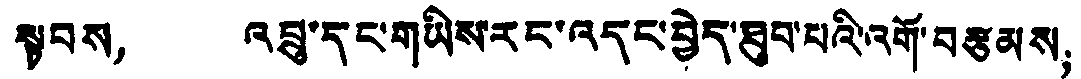སྟབས， འབྲུ་དང་གཡིས་རང་འདང་བྱེད་ཐུབ་པའི་འགོ་བརྩམས；
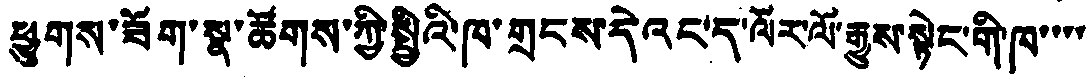ཕྱུགས་ཟོག་སྣ་ཚོགས་ཀྱི་སྤྱིའི་ཁ་གྲངས་དེའང་ད་ལོར་ལོ་རྒྱུས་སྟེང་གི་ཁ་་་་
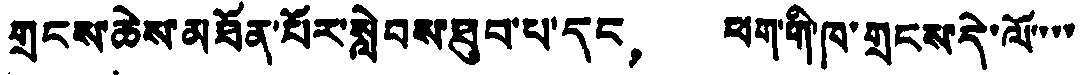གྲངས་ཆེས་མཐོན་པོར་སླེབས་ཐུབ་པ་དང， ཕག་གི་ཁ་གྲངས་དེ་ལོ་་་་
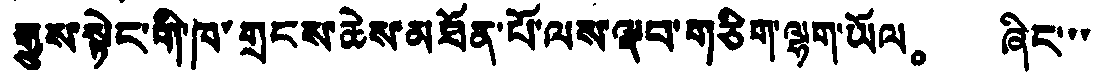རྒྱུས་སྟེང་གི་ཁ་གྲངས་ཆེས་མཐོན་པོ་ལས་ལྡབ་གཅིག་ལྷག་ཡོལ。 ཞིང་་་
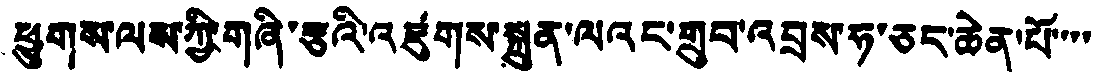ཕྱུགས་ལས་ཀྱི་གཞི་རྩའི་འཛུགས་སྐྲུན་ལའང་གྲུབ་འབྲས་ཧ་ཅང་ཆེན་པོ་་་་
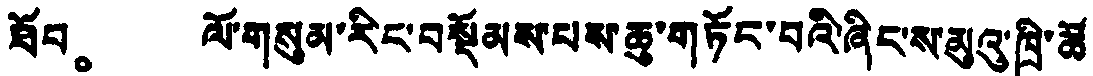ཐོབ。 ལོ་གསུམ་རིང་བསྡོམས་པས་ཆུ་གཏོང་བའི་ཞིང་ས་མུའུ་ཁྲི་ཚོ་
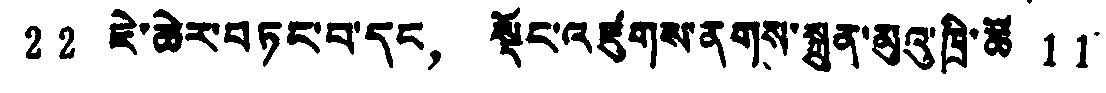22 ཇེ་ཆེར་བཏང་བ་དང， སྡོང་འཛུགས་ནགས་སྐྲུན་མུའུ་ཁྲི་ཚོ 11
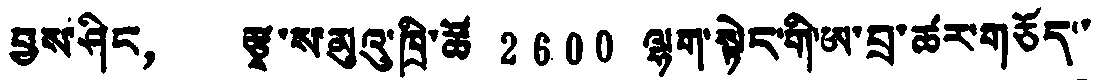བྱས་ཤིང， རྩྭ་ས་མུའུ་ཁྲི་ཚོ 2600 ལྷག་སྟེང་གི་ཨ་བྲ་ཚར་གཅོད་་
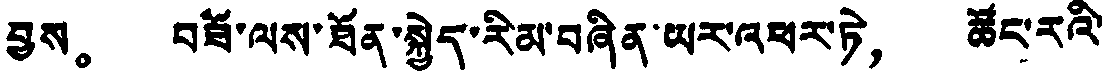བྱས。 བཟོ་ལས་ཐོན་སྐྱེད་རིམ་བཞིན་ཡར་འཕར་ཏེ， ཚོང་རའི་
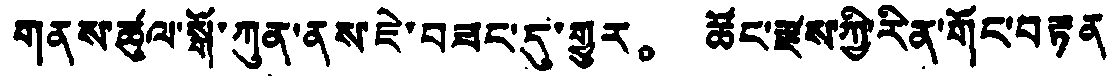གནས་ཚུལ་སྒོ་ཀུན་ནས་ཇེ་བཟང་དུ་གྱུར。 ཚོང་རྫས་ཀྱི་རིན་གོང་བརྟན
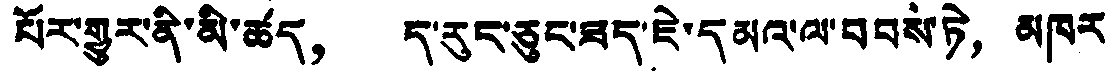པོར་གྱུར་ནི་མི་ཚད， ད་རུང་ཅུང་ཟད་ཇེ་དམའ་ལ་བབས་ཏེ， མཁར
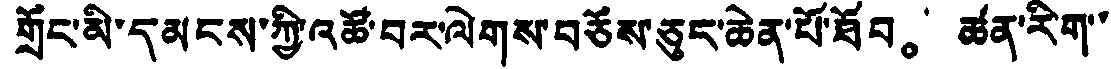གྲོང་མི་དམངས་ཀྱི་འཚོ་བར་ལེགས་བཅོས་ཅུང་ཆེན་པོ་ཐོབ。 ཚན་རིག་་
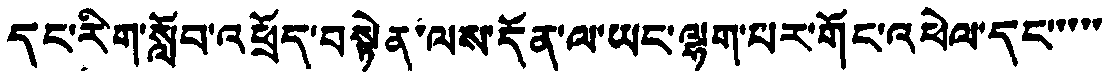དང་རིག་སློབ་འཕྲོད་བསྟེན་ལས་དོན་ལ་ཡང་ལྷག་པར་གོང་འཕེལ་དང་་་་་
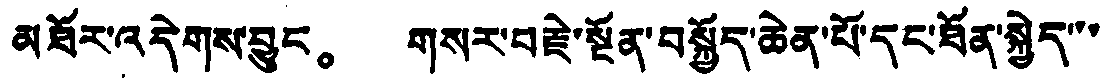མཐོར་འདེགས་བྱུང。 གསར་བརྗེ་སྔོན་བསྐྱོད་ཆེན་པོ་དང་ཐོན་སྐྱེད་་་
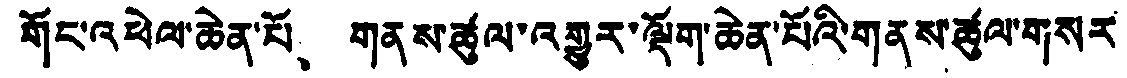གོང་འཕེལ་ཆེན་པོ、 གནས་ཚུལ་འགྱུར་ལྡོག་ཆེན་པོའི་གནས་ཚུལ་གསར
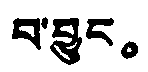བ་བྱུང。
